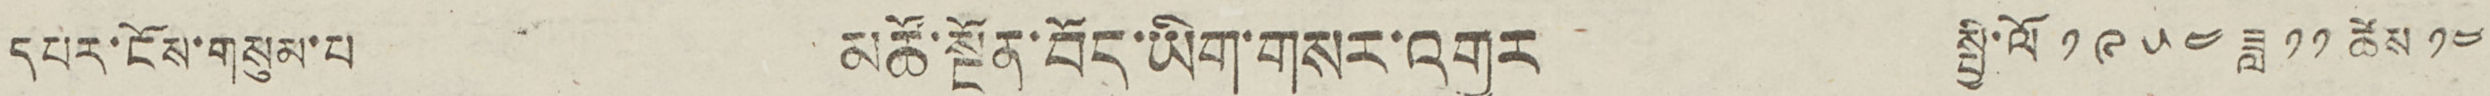དཔར་ངོས་གསུམ་པ མཚོ་སྔོན་བོད་ཡིག་གསར་འགྱུར སྤྱི་ལོ ༡༩༥༤ ཟླ ༡༡ ཚེས ༡༤
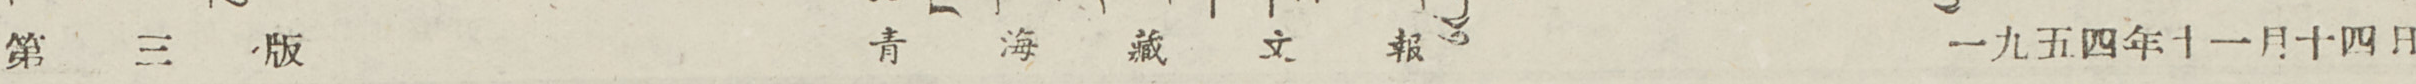第 三版 青 藏 藏 文 報 一九五四年十一月十四日
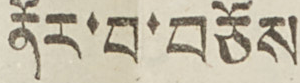ནོར་བ་བཅོས
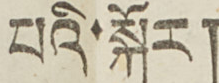པའི་སྐོར།
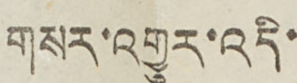གསར་འགྱུར་འདི་
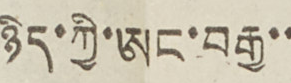ཉིད་ཀྱི་ཨང་བརྒྱ་་
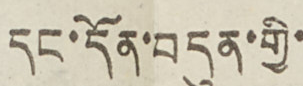དང་དོན་བདུན་གྱི་
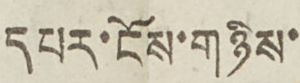དཔར་ངོས་གཉིས་
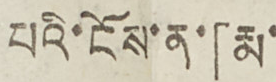པའི་ངོས་ན་「རྨ་
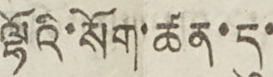ལྷོའི་སོག་ཚན་དུ་
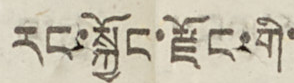རང་སྐྱོང་རྫོང་གི་
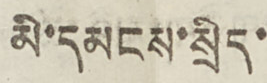མི་དམངས་སྲིད་
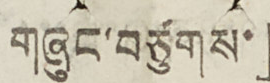གཞུང་བཙུགས་」
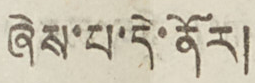ཞེས་པ་དེ་ནོར།
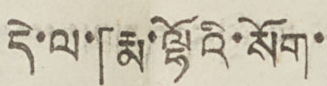དེ་ལ་「རྨ་ལྷོའི་སོག་
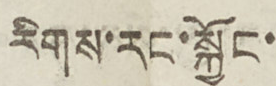རིགས་རང་སྐྱོང་
